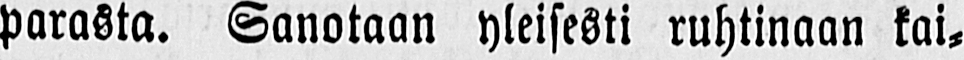parasta. Sanotaan yleisesti ruhtinaan kai-
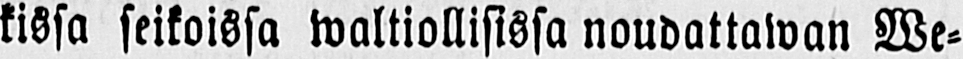kissa seikoissa waltiollisissa noudattawan We-
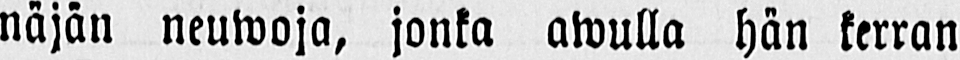näjän neuwoja, jonka awulla hän kerran
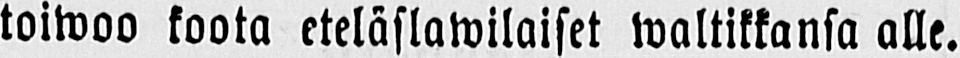toiwoo koota eteläslawilaiset waltikkansa alle.
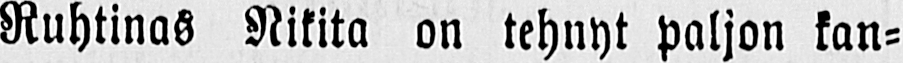Ruhtinas Nikita on tehnyt paljon kan-
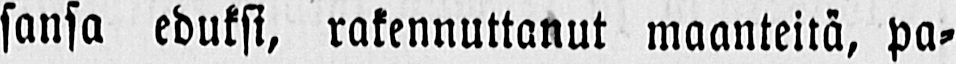sansa eduksi, rakennuttanut maanteitä, pa-
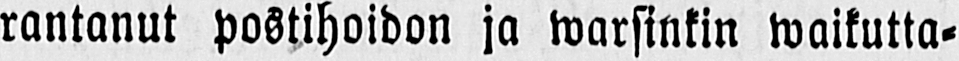rantanut postihoidon ja warsinkin waikutta-
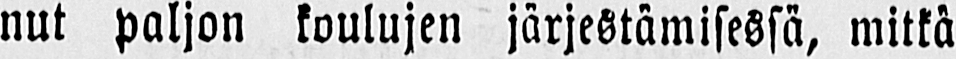nut paljon koulujen järjestämisessä, mitkä
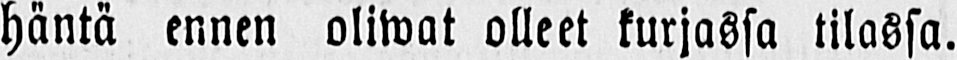häntä ennen oliwat olleet kurjassa tilassa.
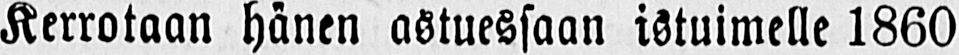Kerrotaan hänen astuessaan istuimelle 1860
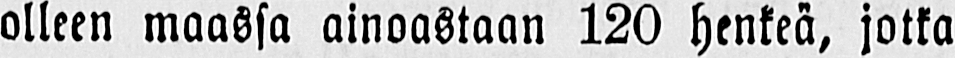olleen maassa ainoastaan 120 henkeä, jotka
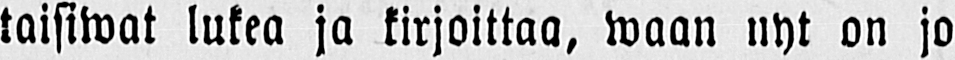taisiwat lukea ja kirjoittaa, waan nyt on jo
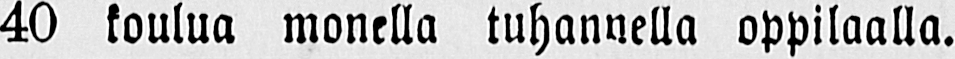40 koulua monella tuhannella oppilaalla.
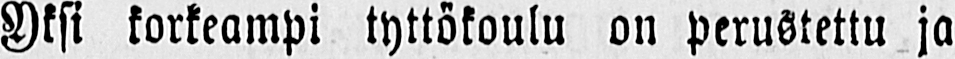Yksi korkeampi tyttökoulu on perustettu ja
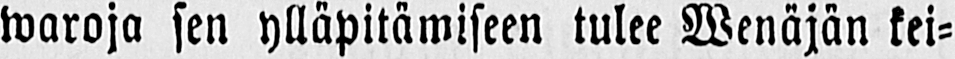waroja sen ylläpitämiseen tulee Wenäjän kei-
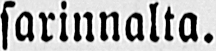sarinnalta.
